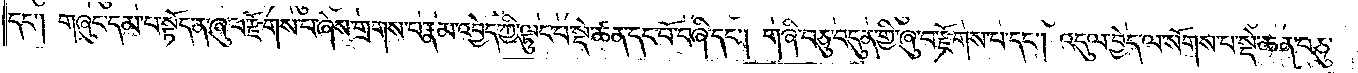དང༌། གཞུང་དམ་པ་སྟོད་ན་ཞུ་པ་རྫོགས་པ་ཞེས་གྲགས་པ་རྣམ་འབྱེད་ཀྱི་ལྟུང་བ་སྡེ་ཚན་དང་པོ་བཞི་དང༌། གཞི་བཅུ་བདུན་གྱི་ཞུ་བ་རྫོགས་པ་དང༌། འདུལ་བྱེད་ལ་སོགས་པ་སྡེ་ཚན་བཅུ་
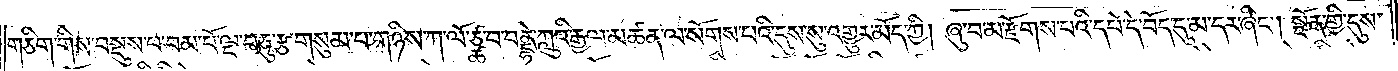གཅིག་གིས་བསྡུས་པ་བམ་པོ་ལྔ་བཅུ་རྩ་གསུམ་པ་གཉིས་ཀ་ལོ་ཙྪ་བ་བནྡྷེ་ཀླུའི་རྒྱལ་མཚན་ལ་སོགས་པའི་དུས་སུ་འགྱུར་འགྱུར་མོད་ཀྱི། ཞུ་བ་མ་རྫོགས་པའི་དཔེ་དེ་བོད་དུ་མ་དར་ཞིང༌། སྔོན་གྱི་དུས་
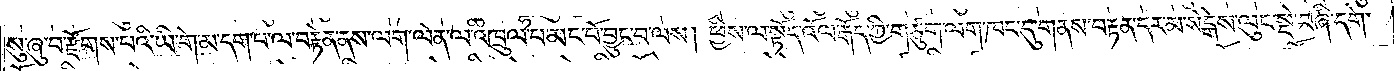སུ་ཞུ་བ་རྫོགས་པའི་ཡི་གེ་མ་དག་པ་ལ་བརྟེན་ནས་ལག་ལེན་ལ་འཁྲུལ་པ་མང་པོ་བྱུང་བ་ལས། ཕྱིས་ལ་སྟོད་འོལ་རྒོད་ཀྱི་གཙུག་ལག་ཁང་དུ་གནས་བརྟན་དར་མ་སེངྒེས་ལུང་སྡེ་བཞི་དགེ་
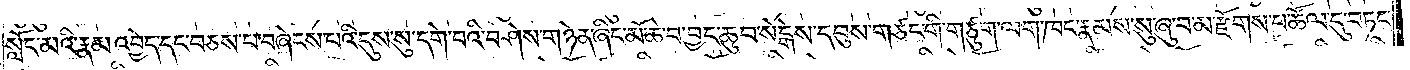སློང་མའི་རྣམ་འབྱེད་དང་བཅས་པ་བཞེངས་པའི་དུས་སུ་དགེ་བའི་བཤེས་གཉེན་ཞིང་མོ་ཆེ་བ་བྱང་ཆུབ་སེངྒེས་དབུས་གཙང་གི་གཙུག་ལག་ཁང་རྣམས་སུ་ཞུ་བ་མ་རྫོགས་པ་ཚོལ་དུ་བཏང་
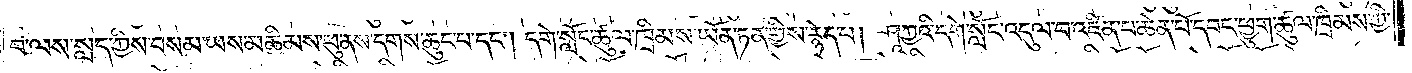བ་ལས་སླད་ཀྱིས་བསམ་ཡས་མཆིམས་ཕུ་ནས་དགས་ཆུང་བ་དང༌། དགེ་སློང་ཚུལ་ཁྲིམས་ཡོན་ཏན་གྱིས་རྙེད་པ། ཤཱཀྱའི་དགེ་སློང་འདུལ་བ་འཛིན་པ་ཆེན་པོ་དབང་ཕྱུག་ཚུལ་ཁྲིམས་ཀྱི་
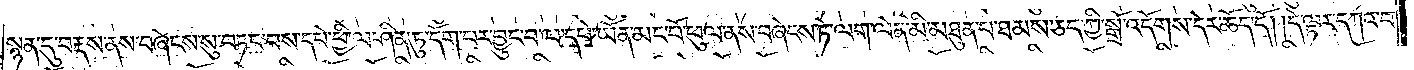སྙན་དུ་བརྡས་ནས་བཞེངས་སུ་བཏང་བས་དཔེ་ཕྱི་ལ་ཤིན་ཏུ་དོག་པར་བྱུང་བ་ལ་དཔེ་ཡོན་མང་པོ་ཕུལ་ནས་བཞེངས་ཏེ་ལག་ལེན་མི་མཐུན་པ་ཐམས་ཅད་ཀྱི་སྒྲོ་འདོགས་དེར་ཆོད་དོ། །དེ་ལྟར་དཀའ་བ་
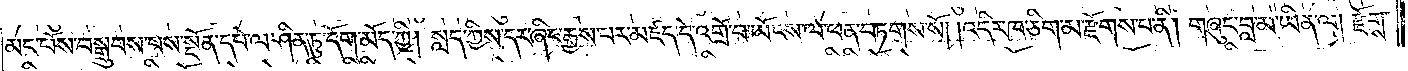མང་པོས་བསྒྲུབས་པས་སྔོན་དཔེ་ལ་ཤིན་ཏུ་དོག་མོད་ཀྱི། སླད་ཀྱིས་དར་ཞིང་རྒྱས་པར་མཛད་དེ་འགྲོ་བ་ཡོངས་ལ་ཕན་བཏགས་སོ། །འདིར་ཁ་ཅིག་མ་རྫོགས་པ་ནི། གཞུང་བླ་མ་ཡིན་ལ། རྫོགས་
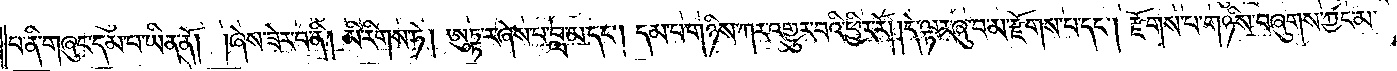པ་ནི་གཞུང་དམ་པ་ཡིན་ནོ། །ཞེས་ཟེར་བ་ནི། མི་རིགས་ཏེ། ཨུཏྟ་ར་ཞེས་པ་བླ་མ་དང༌། དམ་པ་གཉིས་ཀར་འགྱུར་བའི་ཕྱིར་རོ། །དེ་ལྟར་ཞུ་བ་མ་རྫོགས་པ་དང༌། རྫོགས་པ་གཉིས་བཞུགས་ཀྱང་མ་
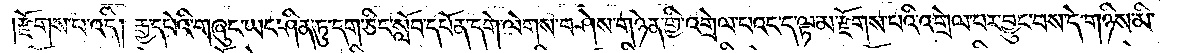།རྫོགས་པ་འདི། རྒྱ་དཔེའི་གཞུང་ཡང་ཤིན་ཏུ་དག་ཅིང་སློབ་དཔོན་དགེ་ལེགས་བཤེས་གཉེན་གྱི་འགྲེལ་པའང་ད་ལྟ་མ་རྫོགས་པའི་འགྲེལ་པར་བྱུང་བས་དེ་གཉིས་མི་
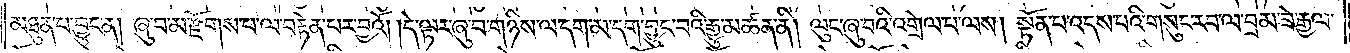མཐུན་པ་བྱུང་ན། ཞུ་བ་མ་རྫོགས་པ་ལ་བརྟེན་པར་བྱའོ། །དེ་ལྟར་ཞུ་བ་གཉིས་ལ་དག་མ་དག་བྱུང་བའི་རྒྱུ་མཚན་ནི། །ལུང་ཞུ་བའི་འགྲེལ་པ་ལས། སྟོན་པ་འདས་པའི་གསུང་རབ་ལ་བྲམ་ཟེ་རྒྱལ་
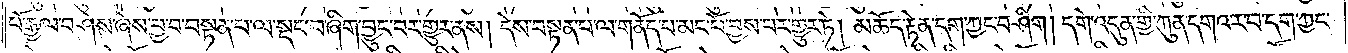པོ་རྒྱལ་བཤེས་ཞེས་བྱ་བ་བསྟན་པ་ལ་སྡང་བ་ཞིག་བྱུང་བར་གྱུར་ནས། དེས་བསྟན་པ་ལ་གནོད་པ་མང་པོ་བྱས་པར་གྱུར་ཏེ། མཆོད་རྟེན་དག་ཀྱང་བཤིག། དགེ་འདུན་གྱི་ཀུན་དགའ་ར་བ་དག་ཀྱང་
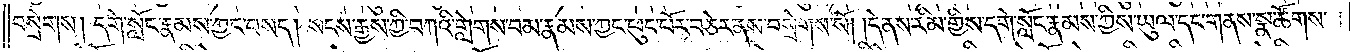བསྲེགས། དགེ་སློང་རྣམས་ཀྱང་བསད། སངས་རྒྱས་ཀྱི་བཀའི་གླེགས་བམ་རྣམས་ཀྱང་ཕུང་པོར་བཅེར་ནས་བསྲེགས་སོ། །དེ་ནས་རིམ་གྱིས་དགེ་སློང་རྣམས་ཀྱིས་ཡུལ་དང་གནས་སྣ་ཚོགས་
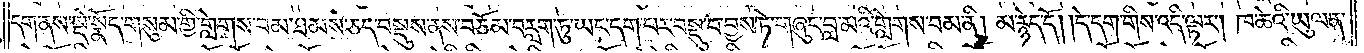དག་ནས་སྡེ་སྣོད་གསུམ་གྱི་གླེགས་བམ་ཐམས་ཅད་བསྡུས་ནས་བཅོམ་བརླག་ཏུ་ཡང་དག་པར་བསྡུ་བ་བྱས་ཏེ་གཞུང་བླ་མའི་གླེགས་བམ་ནི། མ་རྙེད་དོ། །དེ་དག་གིས་འདི་ལྟར། ཁ་ཆེའི་ཡུལ་ན་
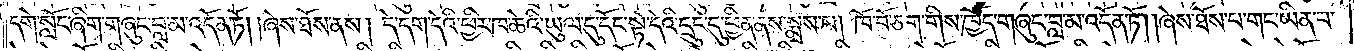དགེ་སློང་ཞིག་གཞུང་བླ་མ་འདོན་ཏོ། །ཞེས་ཐོས་ནས། དེ་དག་དེའི་ཕྱིར་ཁ་ཆེའི་ཡུལ་དུ་དོང་སྟེ་དེའི་དྲུང་དུ་ཕྱིན་ནས་སྨྲས་པ། ཁོ་བོ་ཅག་གིས་ཁྱོད་གཞུང་བླ་མ་འདོན་ཏོ། །ཞེས་ཐོས་པ་གང་ཡིན་པ་
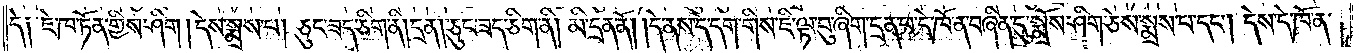དེ༑ ཇེ་ཁ་ཏོན་གྱིས་ཤིག །དེས་སྨྲས་པ། ཅུང་ཟད་ཅིག་ནི། དྲན་།ཅུང་ཟད་ཅིག་ནི། མི་དྲན་ནོ། །དེ་ནས་དེ་དག་གིས་ཇི་ལྟ་བུ་ཞིག་དྲན་པ་དེ་ཁོ་ན་བཞིན་དུ་སྨྲོས་ཤིག་ཅེས་སྨྲས་པ་དང༌། དེས་དེ་ཁོ་ན་
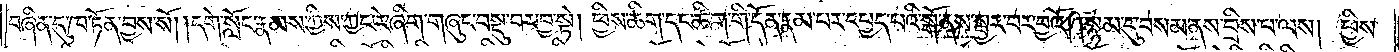བཞིན་དུ་ཁ་ཏོན་བྱས་སོ། །དགེ་སློང་རྣམས་ཀྱིས་ཀྱང་རེ་ཞིག་གཞུང་བསྡུ་བར་བྱ་སྟེ། ཕྱིས་ཚིག་དང་ཚིག་གི་དོན་རྣམ་པར་དཔྱད་པའི་སྒོ་ནས་སྦྱར་བར་བྱའོ། །སྙམ་དུ་བསམ་ནས་བྲིས་པ་ལས། ཕྱིས་
